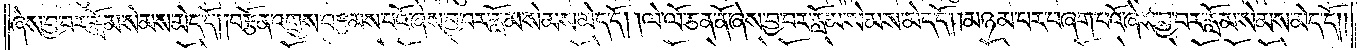ཞེས་བྱ་བར་རློམ་སེམས་མེད་དོ། །བརྩོན་འགྲུས་བརྩམས་པའོ་ཞེས་བྱ་བར་རློམ་སེམས་མེད་དོ། །ལེ་ལོ་ཅན་ནོ་ཞེས་བྱ་བར་རློམ་སེམས་མེད་དོ། །མཉམ་པར་བཞག་པའོ་ཞེས་བྱ་བར་རློམ་སེམས་མེད་དོ༎
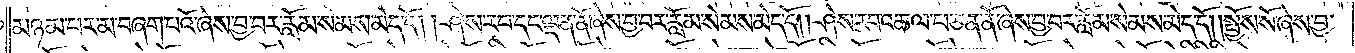མཉམ་པར་མ་བཞག་པའོ་ཞེས་བྱ་བར་རློམ་སེམས་མེད་དོ། །ཤེས་རབ་དང་ལྡན་ནོ་ཞེས་བྱ་བར་རློམ་སེམས་མེད་དོ། །ཤེས་རབ་འཆལ་པ་ཅན་ནོ་ཞེས་བྱ་བར་རློམ་སེམས་མེད་དོ། །སྤྱོས་སོ་ཞེས་བྱ་
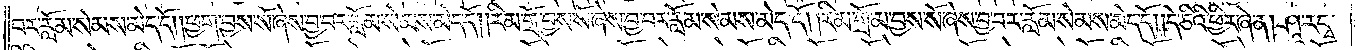བར་རློམ་སེམས་མེད་དོ། །ཕྱག་བྱས་སོ་ཞེས་བྱ་བར་རློམ་སེམས་མེད་དོ། །རིམ་གྲོ་བྱས་སོ་ཞེས་བྱ་བར་རློམ་སེམས་མེད་དོ། །རིམ་གྲོ་མ་བྱས་སོ་ཞེས་བྱ་བར་རློམ་སེམས་མེད་དོ། །དེ་ཅིའི་ཕྱིར་ཞེ་ན། ཤཱ་ར་དྭ་
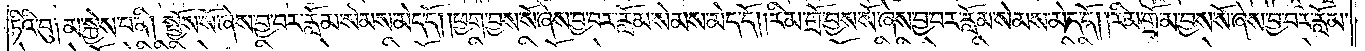ཏིའི་བུ༑ མ་སྐྱེས་པ་ནི། སྤྱོས་སོ་ཞེས་བྱ་བར་རློམ་སེམས་མེད་དོ། །ཕྱག་བྱས་སོ་ཞེས་བྱ་བར་རློམ་སེམས་མེད་དོ། །རིམ་གྲོ་བྱས་སོ་ཞེས་བྱ་བར་རློམ་སེམས་མེད་དོ། །རིམ་གྲོ་མ་བྱས་སོ་ཞེས་བྱ་བར་རློམ་
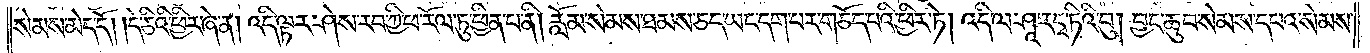སེམས་མེད་དོ། །དེ་ཅིའི་ཕྱིར་ཞེ་ན། འདི་ལྟར་ཤེས་རབ་ཀྱི་ཕ་རོལ་ཏུ་ཕྱིན་པ་ནི། རློམ་སེམས་ཐམས་ཅད་ཡང་དག་པར་གཅོད་པའི་ཕྱིར་ཏེ། འདི་ལ་ཤཱ་ར་དྭ་ཏིའི་བུ། བྱང་ཆུབ་སེམས་དཔའ་སེམས་
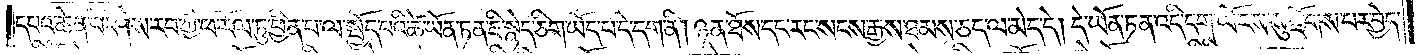དཔའ་ཆེན་པོ་ཤེས་རབ་ཀྱི་ཕ་རོལ་ཏུ་ཕྱིན་པ་ལ་སྤྱོད་པའི་ཚེ་ཡོན་ཏན་ཇི་སྙེད་ཅིག་ཡོད་པ་དེ་དག་ནི། ཉན་ཐོས་དང་རང་སངས་རྒྱས་ཐམས་ཅད་ལ་མེད་དེ། དེ་ཡོན་ཏན་འདི་དག་ཡོངས་སུ་རྫོགས་པར་བྱེད་
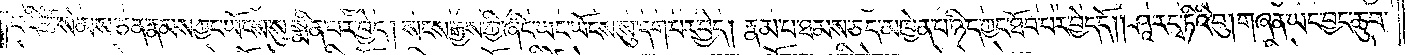བའི་ཚེ་སེམས་ཅན་རྣམས་ཀྱང་ཡོངས་སུ་སྨིན་པར་བྱེད། སངས་རྒྱས་ཀྱི་ཞིང་ཡང་ཡོངས་སུ་དག་པར་བྱེད། རྣམ་པ་ཐམས་ཅད་མཁྱེན་པ་ཉིད་ཀྱང་ཐོབ་པར་བྱེད་དོ༎ ཤཱ་ར་དྭ་ཏིའི་བུ། གཞན་ཡང་བྱང་ཆུབ་
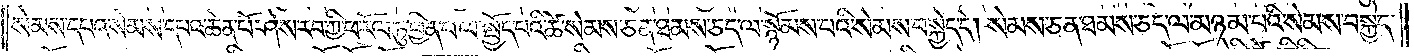སེམས་དཔའ་སེམས་དཔའ་ཆེན་པོ་ཤེས་རབ་ཀྱི་ཕ་རོལ་ཏུ་ཕྱིན་པ་ལ་སྤྱོད་པའི་ཚེ་སེམས་ཅན་ཐམས་ཅད་ལ་སྙོམས་པའི་སེམས་བསྐྱེད་དེ། སེམས་ཅན་ཐམས་ཅད་ལ་མཉམ་པའི་སེམས་བསྐྱེད་
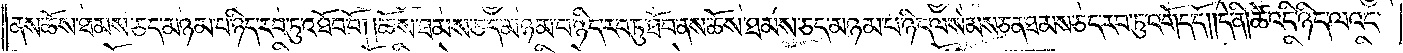ནས་ཆོས་ཐམས་ཅད་མཉམ་པ་ཉིད་རབ་ཏུ་འཐོབ་བོ། །ཆོས་ཐམས་ཅད་མཉམ་པ་ཉིད་རབ་ཏུ་ཐོབ་ནས་ཆོས་ཐམས་ཅད་མཉམ་པ་ཉིད་ལ་སེམས་ཅན་ཐམས་ཅད་རབ་ཏུ་འགོད་དོ། །དེ་ནི། ཚེ་འདི་ཉིད་ལའང་
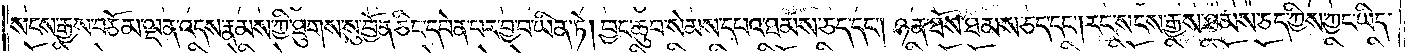སངས་རྒྱས་བཅོམ་ལྡན་འདས་རྣམས་ཀྱི་ཐུགས་སུ་བྱོན་ཅིང་དབེན་པར་བྱ་བ་ཡིན་ཏེ། བྱང་ཆུབ་སེམས་དཔའ་ཐམས་ཅད་དང༌། ཉན་ཐོས་ཐམས་ཅད་དང༌། རང་སངས་རྒྱས་ཐམས་ཅད་ཀྱིས་ཀྱང་ཡིད་
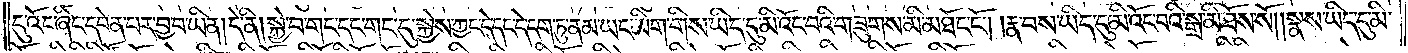དུ་འོང་ཞིང་དབེན་པར་བྱ་བ་ཡིན། དེ་ནི། སྐྱེ་བ་གང་དང་གང་དུ་སྐྱེས་ཀྱང་དེ་དང་དེ་དག་ཏུ་ནམ་ཡང་མིག་གིས་ཡིད་དུ་མི་འོང་བའི་གཟུགས་མི་མཐོང་ངོ༌། །རྣ་བས་ཡིད་དུ་མི་འོང་བའི་སྒྲ་མི་ཐོས་སོ། །སྣས་ཡིད་དུ་མི་
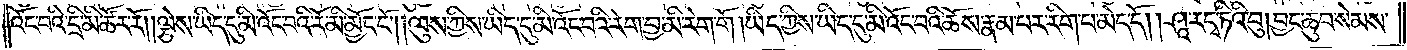འོང་བའི་དྲི་མི་ཚོར་རོ། །ལྕེས་ཡིད་དུ་མི་འོང་བའི་རོ་མི་མྱོང་ངོ༌། །ལུས་ཀྱིས་ཡིད་དུ་མི་འོང་བའི་རེག་བྱ་མི་རེག་གོ །ཡིད་ཀྱིས་ཡིད་དུ་མི་འོང་བའི་ཆོས་རྣམ་པར་རིག་པ་མེད་དོ། །ཤཱ་ར་དྭ་ཏིའི་བུ། བྱང་ཆུབ་སེམས་
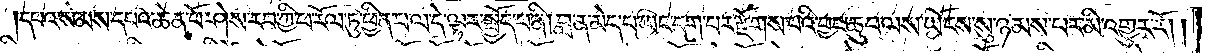དཔའ་སེམས་དཔའ་ཆེན་པོ་ཤེས་རབ་ཀྱི་ཕ་རོལ་ཏུ་ཕྱིན་པ་ལ་དེ་ལྟར་སྤྱོད་པ་ནི། བླ་ན་མེད་པ་ཡང་དག་པར་རྫོགས་པའི་བྱང་ཆུབ་ལས་ཡོངས་སུ་ཉམས་པར་མི་འགྱུར་རོ། །
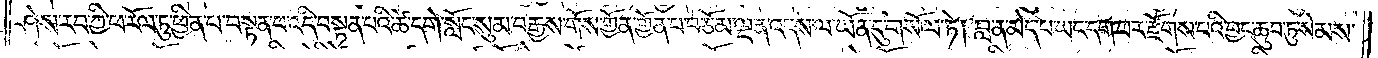ཤེས་རབ་ཀྱི་ཕ་རོལ་ཏུ་ཕྱིན་པ་བསྟན་པ་འདི་བསྟན་པའི་ཚེ་དགེ་སློང་སུམ་བརྒྱས་གོས་གྱོན་གྱོན་པ་བཅོམ་ལྡན་འདས་ལ་ཡོན་དུ་གསོལ་ཏེ། བླ་ན་མེད་པ་ཡང་དག་པར་རྫོགས་པའི་བྱང་ཆུབ་ཏུ་སེམས་
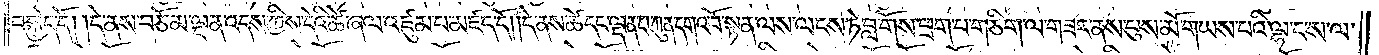བསྐྱེད་དོ། །དེ་ནས་བཅོམ་ལྡན་འདས་ཀྱིས་དེའི་ཚེ་ཞལ་འཛུམ་པ་མཛད་དོ། །དེ་ནས་ཚེ་དང་ལྡན་པ་ཀུན་དགའ་བོ་སྟན་ལས་ལངས་ཏེ་བླ་གོས་ཕྲག་པ་གཅིག་ལ་གཟར་ནས་བུས་མོ་གཡས་པའི་ལྷ་ང་ས་ལ་
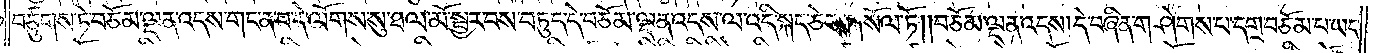བཙུགས་ཏེ་བཅོམ་ལྡན་འདས་གང་ན་བ་དེ་ལོག་ས་སུ་ཐལ་མོ་སྦྱར་བས་བཏུད་དེ་བཅོམ་ལྡན་འདས་ལ་འདི་སྐད་ཅེས་གསོལ་ཏོ། །བཅོམ་ལྡན་འདས། དེ་བཞིན་གཤེགས་པ་དགྲ་བཅོམ་པ་ཡང་
